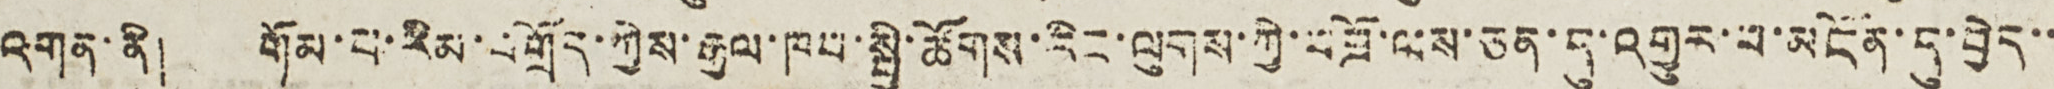འགན་ནི། གོམ་པ་རིམ་བགྲོད་ཀྱིས་རྒྱལ་ཁབ་སྤྱི་ཚོགས་རིང་ལུགས་ཀྱི་བཟོ་ལས་ཅན་དུ་འགྱུར་བ་མངོན་དུ་བྱེད་་
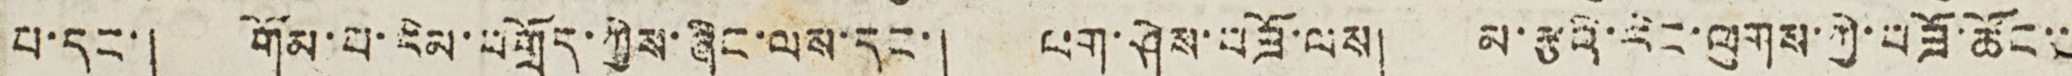པ་དང་། གོམ་པ་རིམ་བགྲོད་ཀྱིས་ཞིང་ལས་དང་། ལག་ཤེས་བཟོ་ལས། མ་རྩའི་རིང་ལུགས་ཀྱི་བཟོ་ཚོང་་
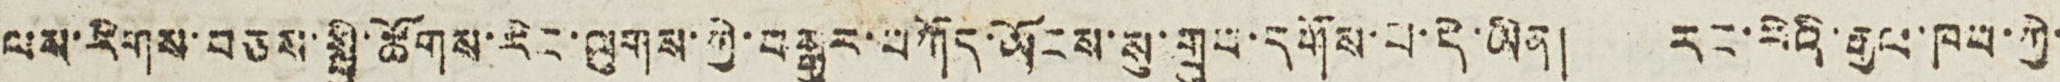ལས་རིགས་བཅས་སྤྱི་ཚོགས་རིང་ལུགས་ཀྱི་བརྒྱུར་བཀོད་ཡོངས་སུ་ཀྲུབ་དགོས་པ་དེ་ཡིན། རང་རེའི་རྒྱལ་ཁབ་ཀྱི་
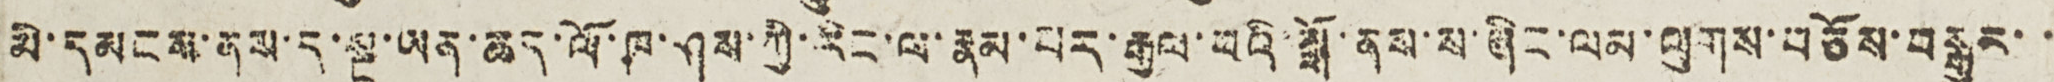མི་དམངས་ནས་ད་སྔ་ཡན་ཆད་ལོ་ཁ་ཤས་ཀྱི་རིང་ལ་རྣམ་པར་རྒྱལ་པའི་སྒོ་ནས་ས་ཞིང་ལམ་ལུགས་བཅོས་བསྒྱུར་་་
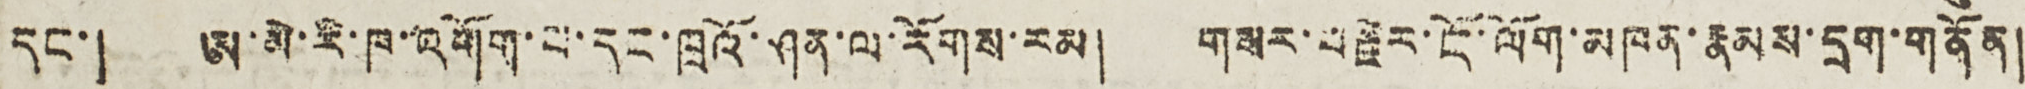དང་། ཨ་མེ་རི་ཁ་འགོག་པ་དང་ཁྲའོ་ཤན་ལ་རོགས་རམ། གསར་བརྗེར་ངོ་ལོག་མཁན་རྣམས་དྲག་གནོན།
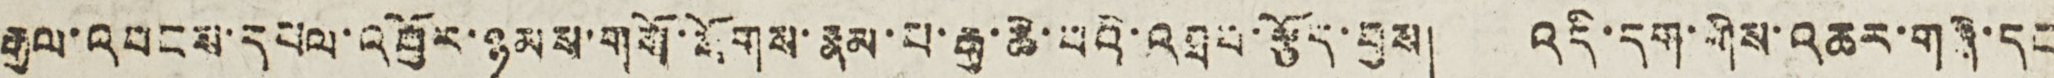རྒྱལ་འབངས་དཔལ་འབྱོར་ཉམས་གསོ་སོགས་རྣམ་པ་རྒྱ་ཆེ་བའི་འཐབ་རྩོད་བྱས། འདི་དག་གིས་འཆར་གཞི་དང
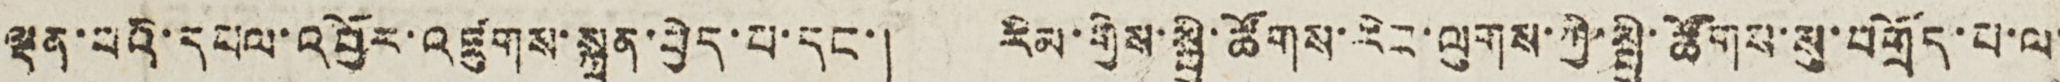ལྡན་པའི་དཔལ་འབྱོར་འཛུགས་སྐྲུན་བྱེད་པ་དང་། རིམ་སྤྱི་ཚོགས་རིང་ལུགས་ཀྱི་སྤྱི་ཚོགས་སུ་བགྲོད་པ་ལ་
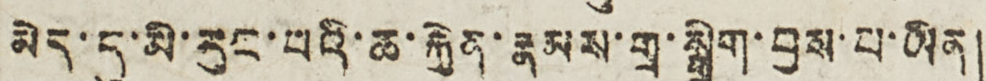མེད་དུ་མི་རུང་པའི་ཆ་རྐྱེན་རྣམས་གྲ་སྒྲིག་བྱས་པ་ཡིན།
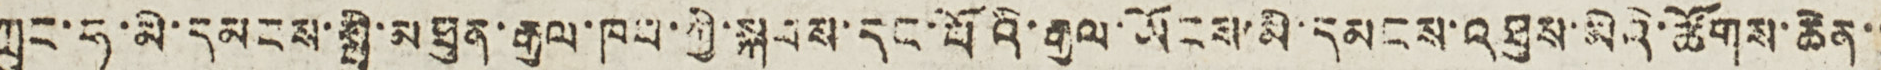ཀྲུང་ཧྭ་མི་དམངས་སྤྱི་མཐུན་རྒྱལ་ཁབ་ཀྱི་སྐབས་དང་པོའི་རྒྱལ་ཡོངས་མི་དམངས་འཐུས་མིའི་ཚོགས་ཆེན་་
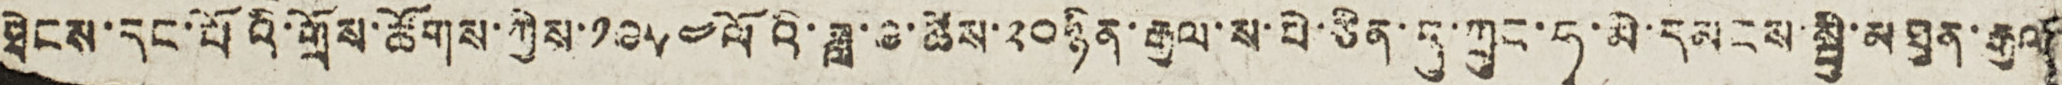ཐེངས་དང་པོའི་གྲོས་ཚོགས་ཀྱེས་༡༩༥༤ལོའི་ཟླ་༩ཚེས་༢༠ཉིན་རྒྱལ་ས་པེ་ཅིན་དུ་ཀྲུང་ཧྭ་མི་དམངས་སྤྱི་མཐུན་རྒྱལ
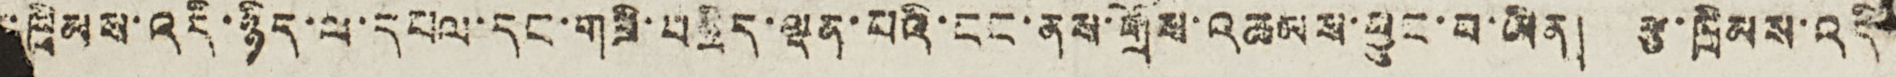་ཁྲིམས་འདི་ཉིད་ལ་དཔལ་དང་གཟི་བརྗིད་ལྡན་པའི་ངང་ནས་གྲོས་འཆམས་བྱུང་བ་ཡིན། རྩ་ཁྲིམས་འདི
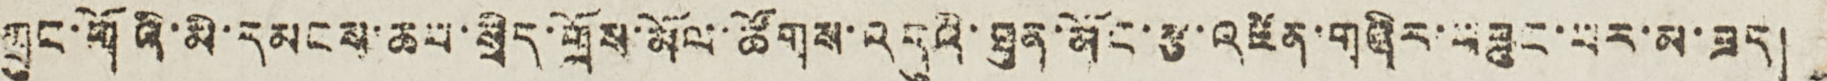ཀྲུང་གོའི་མི་དམངས་སྲིད་གྲོས་མོལ་ཚོགས་འདུའི་ཐུན་མོང་རྩ་འཛིན་གཞིར་བཟུང་པར་མ་ཟད།
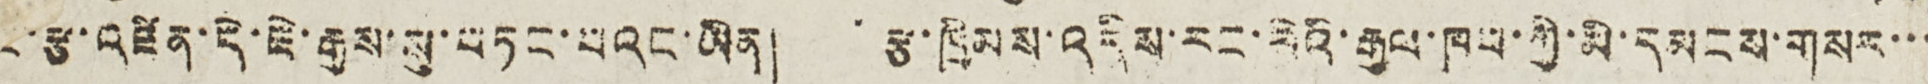་རྩ་འཛིན་དེ་ཇེ་རྒྱས་སུ་བཏང་པའང་ཡིན། རྩ་ཁྲིམས་འདིས་རང་རེའི་རྒྱལ་ཁབ་ཀྱི་མི་དམངས་གསར་་་
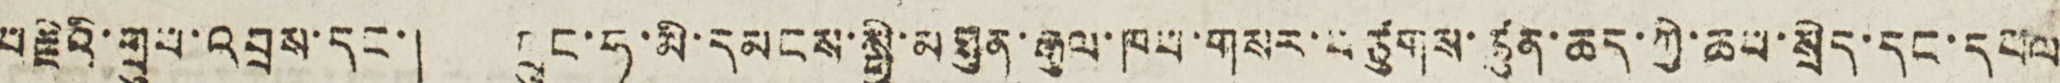བརྗེའི་གྲུབ་འབྲས་དང་། ཀྲུང་ཧྭ་མི་དམངས་སྤྱི་མཐུན་རྒྱལ་ཁབ་གསར་བཙུགས་ཚུན་ཆད་ཀྱི་ཆབ་སྲིད་དང་དཔལ
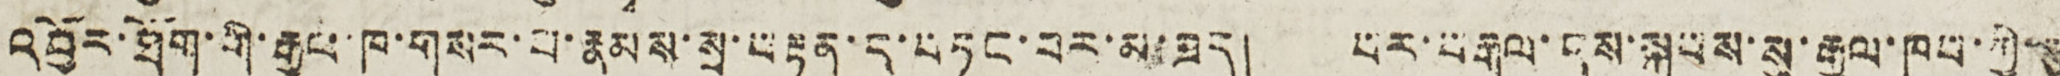འབྱོར་ཐོག་གི་རྒྱལ་ཁ་གསར་བ་རྣམས་སྲ་བརྟན་དུ་བཏང་བར་མ་ཟད། བར་བརྒལ་དུས་སྐབས་སུ་རྒྱལ་ཁབ་ཀྱི་རྩ
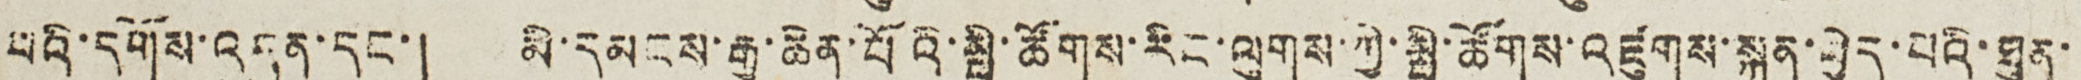པའི་དགོས་འདུན་དང་། མི་དམངས་རྒྱ་ཆེན་པོའི་སྤྱི་ཚོགས་རིང་ལུགས་ཀྱི་སྤྱི་ཚོགས་འཛུགས་སྐྲུན་བྱེད་པའི་ཐུན་
